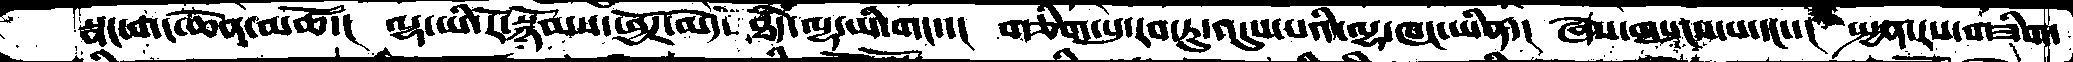སྣང་གང་ཆེན་མཚོ་།  ལྷ་ཡི་རོ་སྙོམས་ཕྱོཌ་མེད་ ཐཾད་ལྷ་ཡི་གང་་།  གཅིག་པུ་རབ་ཏུ་འདུས་པའི་ལྷ་ཁང་ཡིན་།  ཞེས་གསུངས་པ་དང་་།  སྤྱན་རས་གཟིག་
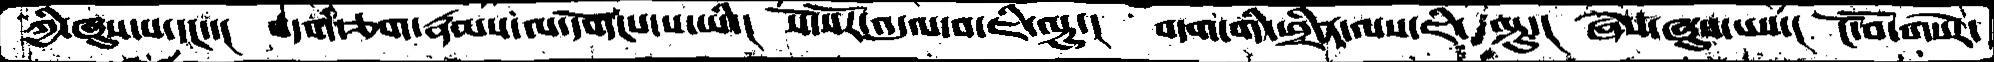ཀྱི་ཞུས་པ་དང་་།  བདག་ཅག་རྣམས་ལ་དགོངས་པ་ཡི་།  སོ་སོར་འདུལ་བ་ཇི་ལྟུ་།  བདག་གི་ཕྲིན་ལས་ཇི་ལྟུ་།  ཞེས་ཞུས་པས་།  ངོ་བོ་གསེར་
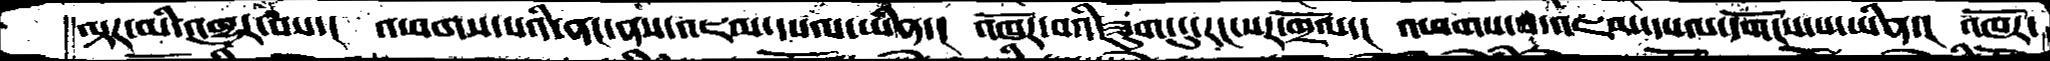ལྟར་མི་འགྱུར་པས་།  འཕགས་པའི་ནང་ནས་འཇམ་དཔལ་ཡིན་།  འཁོར་བའི་ཟུག་ངུ་རང་སར་གྲོལ་།  འཕགས་པ་འཇམ་དཔལ་དགོངས་པ་ཡིན་།  འཁོར་
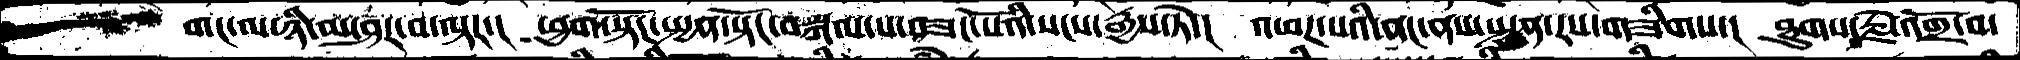གང་ལ་ཉི་མ་ཤར་བ་ལྟར་།  ཕྱག་སྟོང་སྤྱན་སྟོང་བསྐལ་པ་བཟང་པོའི་སངས་རྒྱས་ཏེ་།  འཕཌ་པའི་ནང་ནས་སྤྱན་རས་གཟིགས་།  ཐུགས་རྗེ་འགྲོ་བ་
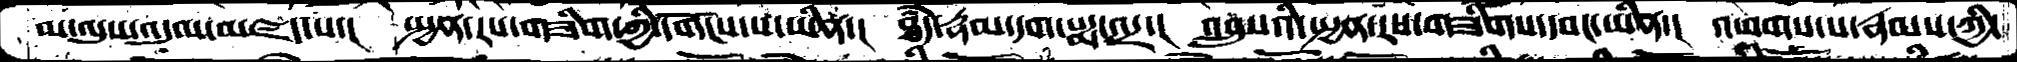མ་ལུས་འདུལ་མཛད་པ་།  སྤྱན་རས་གཟིག་ཀྱི་དགོངས་པ་ཡིན་།  ཐཾད་རྣམ་དག་པདྨ་འདྲ་།  འབྲུསའི་སྤྱན་རས་གཟིགས་དབང་ཡིན་།  འཕགས་པ་རྣམས་ཀྱི་
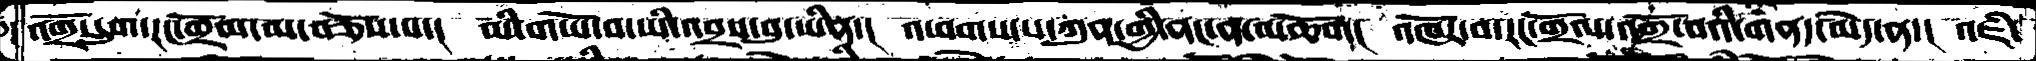འགྲོ་དྲུག་རང་གྲོལ་མ་བཅོས་པ་།  མི་གཡོ་བ་ཡི་འབྲས་བུ་ཡིན་།  འཕགས་པ་ཀུན་གྱི་ནང་ན་མཆོག།  འཁོར་བ་རང་གྲོལ་འགྲོ་བའི་གནད་མེད་ན་།   འཇཾ་
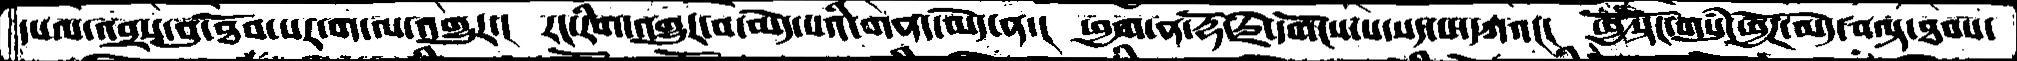དཔལ་འབྲས་བུ་ཐོབ་པར་ག་ལ་འགྱུར་།  རང་རིག་འགྱུར་བ་མེད་པའི་གནད་མེད་ན་།  ཕྱག་ན་རྡོ་རྗེ་དགོངས་པ་སད་པ་དཀའ།།།  ཕྱོསྟོང་གསུཾ་ཕྱོཌ་མེད་བལྟ་ཐབས་
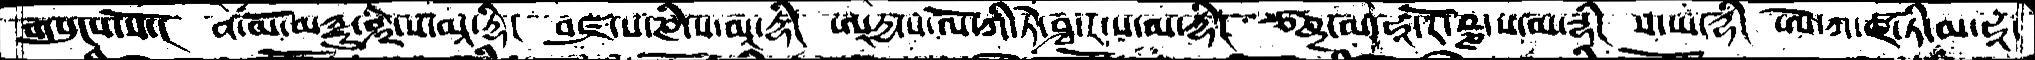གསུངས་སོ་།  ན་མོ་མཉྫུ་ཤྲི་ས་མཱ་དྷི།  བཛྲ་ས་ཎི་ས་མཱ་དྷི།  ཨཱཏྱ་ས་ལོ་ཀི་ཏེ་ཤྭ་ར་ས་མ་དྷི།  ཙཎྜ་མ་ཧཱ་རོ་ཥྞ་ས་མ་དྷི།  ས་ཡ་དྷི།  ཨེ་ཀ་ཛོ་ཏི་མ་ཧཱ་
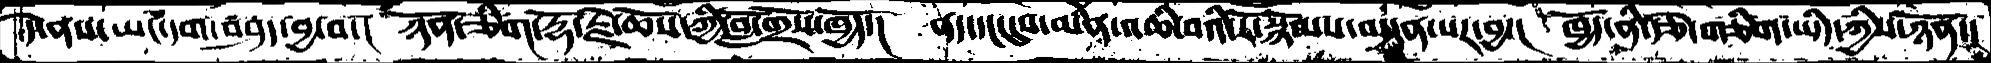དེ་ནས་ཡང་དག་བཤད་བྱ་བ་།   ཉོན་ཅིག་རྡོ་རྗེ་ཆོས་ཀྱི་བློ་གྲོས་ཁྱོད་།   ནད་དང་དུས་མིན་འཆི་བའི་རོ་སྙོམས་བདྱན་པར་བྱ་།  ཁྱོད་ནི་རྩེ་གཅིག་ཡིད་ཀྱིས་ཉོན་།
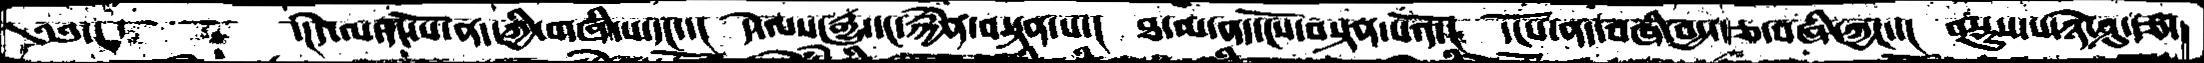༄༅་།    ་།དེ་ལ་དང་པོ་ནད་ཀྱི་གཞི་ས་དང་་།  དེ་ལས་རྒྱུ་དང་རྐྱེན་བསྟན་པ་།  ཐ་མ་ནད་དངོས་བསྟན་པའོ་།  དངོས་ནད་བཞི་བདྱད་རྩ་བཞི་ཀྱང་་།  བསྡུས་པ་ཉེ་ཤུ་རྩ་
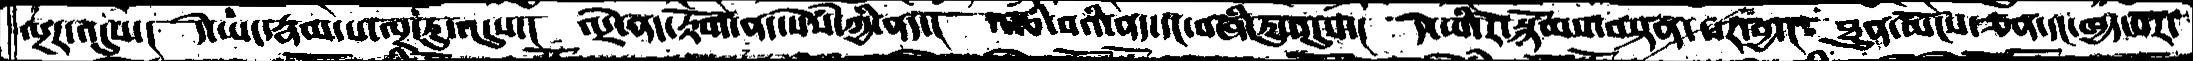ལྔར་འདུས་།  དེ་ཡང་རྣམ་པ་ལྔ་རུ་འདུས་།  འདྲེ་ནད་རྟོག་ན་སེཾས་ཀྱི་ནད་།  འཚེ་བའི་ནད་དང་བཞིན་ཏུ་འདུས་།  དེ་ཡི་རོ་སྙོམས་བསྟན་པར་བྱ་།  ཐུན་མོངས་ཅན་དང་ཁྱད་པར་
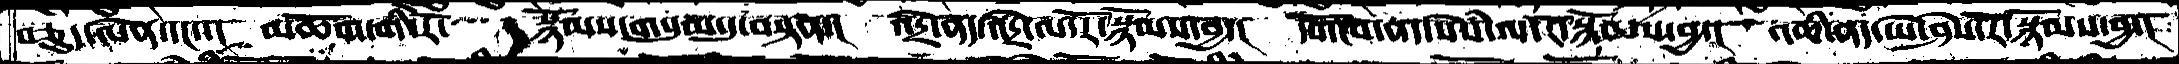བཅུད་ལེན་དང་་།  མཆོག་གི་རོ་  སྙོམས་གསུམ་དུ་བསྟན་།   འདྲེ་ནད་འདྲེ་ལ་རོ་སྙོམས་བྱ་།  དགོངས་ནད་སེཾས་ལ་རོ་སྙོམས་བྱ་།  འཆི་ནད་ཡེ་ཤེས་རོ་སྙོམས་བྱ་།
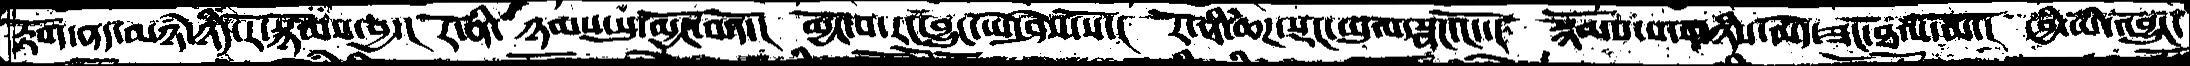རྟོག་ནད་མཉཾ་ཉིད་རོ་སྙོམས་བྱ་།  རོ་ནི་ཉམས་སུ་མྱོང་བའོ་།  མྱོང་བ་རང་བྱུང་ཡེ་ཤེས་སོ་།  རོ་ནི་ཆཌ་སྡང་ཡུལ་སྣང་ངོ་།  སྙོམས་པ་གཉིས་མེད་ཟང་ཐལ་མ་།  ཕྱི་ཡི་འབྱུང་
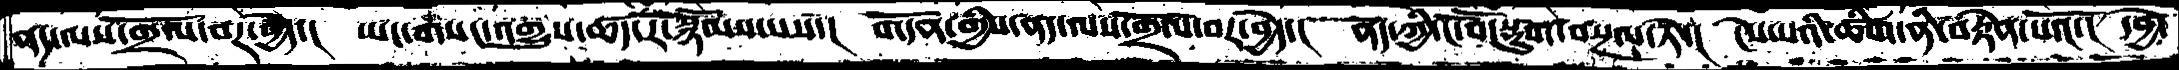ནད་ལས་གྲོལ་བར་བྱེད་།  ཡང་གསང་འགྱུས་ཚད་རོ་སྙམས་པས་།  གདོན་གྱིས་ནད་ལས་གྲོལ་བར་བྱེད་།  ནད་ཀྱི་ངོ་བོ་སྡུག་བསྔལ་ཏེ་།  ངེས་པའི་ཚིག་ནི་བརྟེན་པའོ་།  དབྱེ་
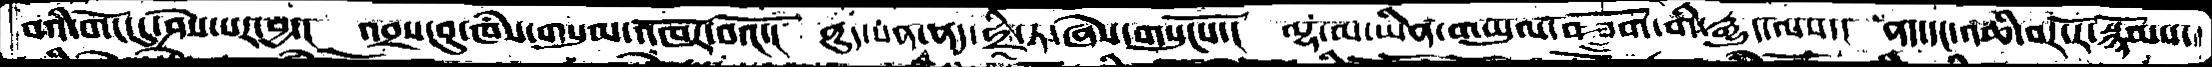བའི་གོང་དུ་ཤེས་པར་བྱ་།  འབྲས་བུ་ཁཾས་གསུམ་འཁོར་བའོ་།  ནུད་པན་ནད་ཧྲི་ཏ་ཞེས་གསུངསོ་།   ལྷ་མ་ཡིན་གཡུལ་བཟློག་གི་རྒྱུད་ལས་།  ནད་དང་འཆི་བར་རོ་སྙོམས་
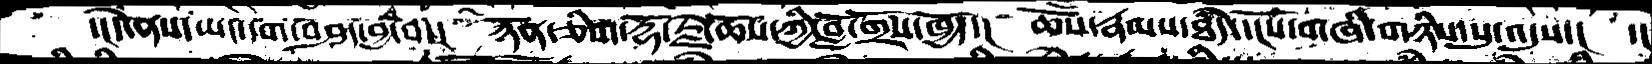་།དེ་ནས་ཡང་དག་བཤད་བྱ་བ་།  ཉོན་ཅིག་རྡོ་རྗེ་ཆོས་ཀྱི་བློ་གྲོས་ཁྱོད་།  ཆོས་རྣམས་ཐཾད་དངོས་གཞི་གཉིས་སུ་འདུས་།   ་།
